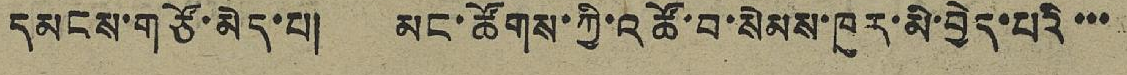དམངས་གཙོ་མེད་པ། མང་ཚོགས་ཀྱི་འཚོ་བ་སེམས་ཁུར་མི་བྱེད་པའི་་་
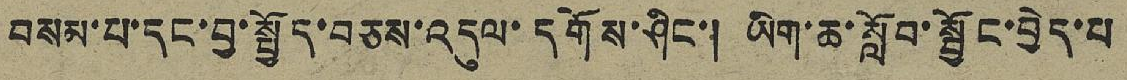བསམ་པ་དང་བྱ་སྤྱོད་བཅས་འདུལ་དགོས་ཤིང་། ཡིག་ཆ་སློབ་སྦྱོང་བྱེད་པ
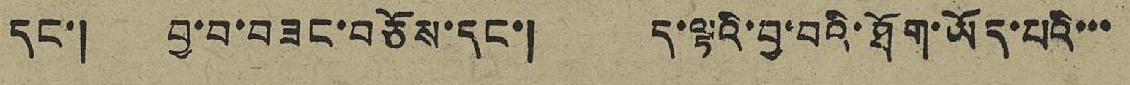དང་། བྱ་བ་བཟང་བཅོས་དང་། ད་ལྟའི་བྱ་བའི་ཐོག་ཡོད་པའི་་་
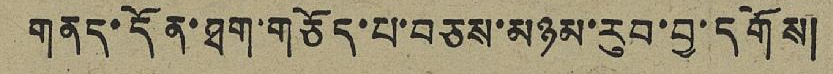གནད་དོན་ཐག་གཅོད་པ་བཅས་མཉམ་རུབ་བྱ་དགོས།
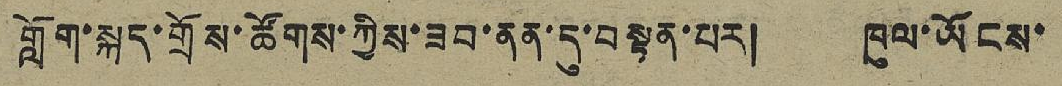གློག་སྐད་གྲོས་ཚོགས་ཀྱིས་ཟབ་ནན་དུ་བསྟན་པར། ཁུལ་ཡོངས་
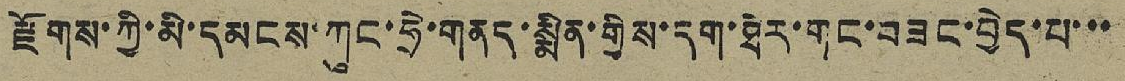རྫོགས་ཀྱི་མི་དམངས་ཀུང་ཧྲེ་གནད་སྨིན་གྱིས་དག་ཐེར་གང་བཟང་བྱེད་པ་་་
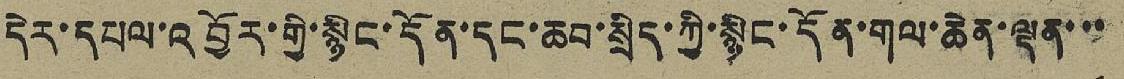དེར་དཔལ་འབྱོར་གྱི་སྙིང་དོན་དང་ཆབ་སྲིད་ཀྱི་སྙིང་དོན་གལ་ཆེན་ལྡན་་་
